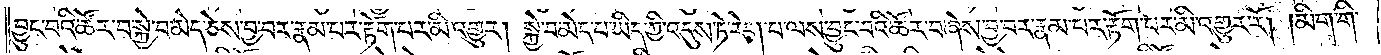བྱུང་བའི་ཚོར་བ་སྐྱེ་བ་མེད་ཅེས་བྱ་བར་རྣམ་པར་རྟོག་པར་མི་འགྱུར། སྐྱེ་བ་མེད་པ་ཡིད་ཀྱི་འདུས་ཏེ་རེག་པ་ལས་བྱུང་བའི་ཚོར་བ་ཞེས་བྱ་བར་རྣམ་པར་རྟོག་པར་མི་འགྱུར་རོ། །མིག་གི་
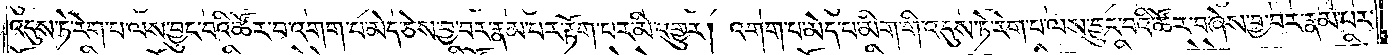འདུས་ཏེ་རེག་པ་ལས་བྱུང་བའི་ཚོར་བ་འགག་པ་མེད་ཅེས་བྱ་བར་རྣམ་པར་རྟོག་པར་མི་འགྱུར། འགག་པ་མེད་པ་མིག་གི་འདུས་ཏེ་རེག་པ་ལས་བྱུང་བའི་ཚོར་བ་ཞེས་བྱ་བར་རྣམ་པར་
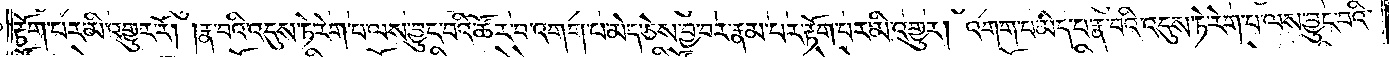རྟོག་པར་མི་འགྱུར་རོ། །རྣ་བའི་འདུས་ཏེ་རེག་པ་ལས་བྱུང་བའི་ཚོར་བ་འགག་པ་མེད་ཅེས་བྱ་བར་རྣམ་པར་རྟོག་པར་མི་འགྱུར། འགག་པ་མེད་པ་རྣ་བའི་འདུས་ཏེ་རེག་པ་ལས་བྱུང་བའི་
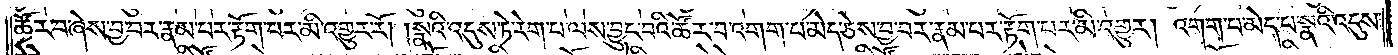ཚོར་བ་ཞེས་བྱ་བར་རྣམ་པར་རྟོག་པར་མི་འགྱུར་རོ། །སྣའི་འདུས་ཏེ་རེག་པ་ལས་བྱུང་བའི་ཚོར་བ་འགག་པ་མེད་ཅེས་བྱ་བར་རྣམ་པར་རྟོག་པར་མི་འགྱུར། འགག་པ་མེད་པ་སྣའི་འདུས་
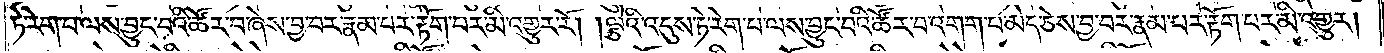ཏེ་རེག་པ་ལས་བྱུང་བའི་ཚོར་བ་ཞེས་བྱ་བར་རྣམ་པར་རྟོག་པར་མི་འགྱུར་རོ། །ལྕེའི་འདུས་ཏེ་རེག་པ་ལས་བྱུང་བའི་ཚོར་བ་འགག་པ་མེད་ཅེས་བྱ་བར་རྣམ་པར་རྟོག་པར་མི་འགྱུར།
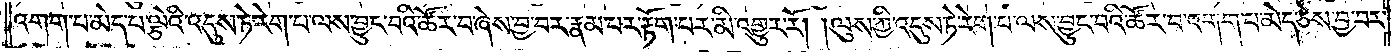འགག་པ་མེད་པ་ལྕེའི་འདུས་ཏེ་རེག་པ་ལས་བྱུང་བའི་ཚོར་བ་ཞེས་བྱ་བར་རྣམ་པར་རྟོག་པར་མི་འགྱུར་རོ། །ལུས་ཀྱི་འདུས་ཏེ་རེག་པ་ལས་བྱུང་བའི་ཚོར་བ་འགག་པ་མེད་ཅེས་བྱ་བར་
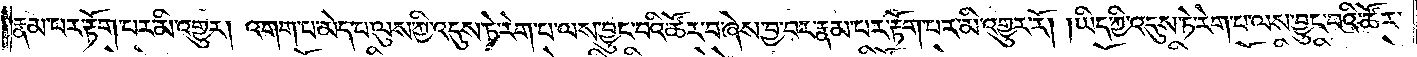རྣམ་པར་རྟོག་པར་མི་འགྱུར། འགག་པ་མེད་པ་ལུས་ཀྱི་འདུས་ཏེ་རེག་པ་ལས་བྱུང་བའི་ཚོར་བ་ཞེས་བྱ་བར་རྣམ་པར་རྟོག་པར་མི་འགྱུར་རོ། །ཡིད་ཀྱི་འདུས་ཏེ་རེག་པ་ལས་བྱུང་བའི་ཚོར་
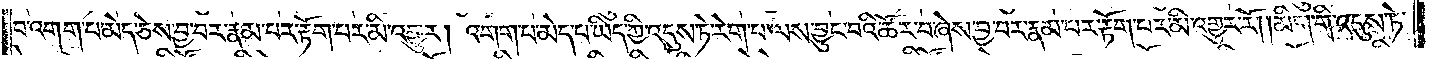བ་འགག་པ་མེད་ཅེས་བྱ་བར་རྣམ་པར་རྟོག་པར་མི་འགྱུར། འགག་པ་མེད་པ་ཡིད་ཀྱི་འདུས་ཏེ་རེག་པ་ལས་བྱུང་བའི་ཚོར་བ་ཞེས་བྱ་བར་རྣམ་པར་རྟོག་པར་མི་འགྱུར་རོ། །མིག་གི་འདུས་ཏེ་
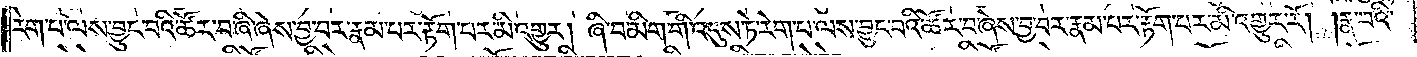རེག་པ་ལས་བྱུང་བའི་ཚོར་བ་ཞི་ཞེས་བྱ་བར་རྣམ་པར་རྟོག་པར་མི་འགྱུར། ཞི་བ་མིག་གི་འདུས་ཏེ་རེག་པ་ལས་བྱུང་བའི་ཚོར་བ་ཞེས་བྱ་བར་རྣམ་པར་རྟོག་པར་མི་འགྱུར་རོ། །རྣ་བའི་
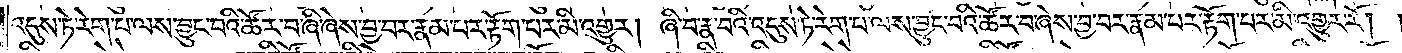འདུས་ཏེ་རེག་པ་ལས་བྱུང་བའི་ཚོར་བ་ཞི་ཞེས་བྱ་བར་རྣམ་པར་རྟོག་པར་མི་འགྱུར། ཞི་བ་རྣ་བའི་འདུས་ཏེ་རེག་པ་ལས་བྱུང་བའི་ཚོར་བ་ཞེས་བྱ་བར་རྣམ་པར་རྟོག་པར་མི་འགྱུར་རོ། །
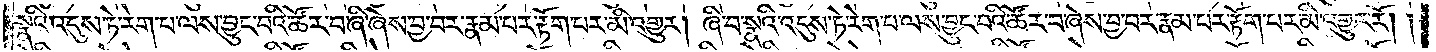སྣའི་འདུས་ཏེ་རེག་པ་ལས་བྱུང་བའི་ཚོར་བ་ཞི་ཞེས་བྱ་བར་རྣམ་པར་རྟོག་པར་མི་འགྱུར། ཞི་བ་སྣའི་འདུས་ཏེ་རེག་པ་ལས་བྱུང་བའི་ཚོར་བ་ཞེས་བྱ་བར་རྣམ་པར་རྟོག་པར་མི་འགྱུར་རོ། །
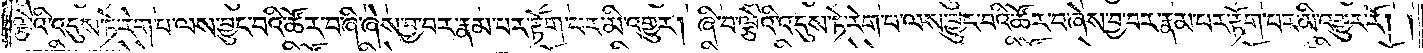ལྕེའི་འདུས་ཏེ་རེག་པ་ལས་བྱུང་བའི་ཚོར་བ་ཞི་ཞེས་བྱ་བར་རྣམ་པར་རྟོག་པར་མི་འགྱུར། ཞི་བ་ལྕེའི་འདུས་ཏེ་རེག་པ་ལས་བྱུང་བའི་ཚོར་བ་ཞེས་བྱ་བར་རྣམ་པར་རྟོག་པར་མི་འགྱུར་རོ། །
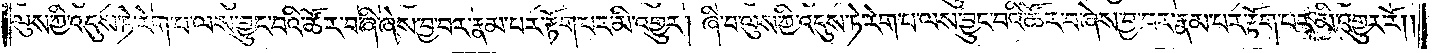ལུས་ཀྱི་འདུས་ཏེ་རེག་པ་ལས་བྱུང་བའི་ཚོར་བ་ཞི་ཞེས་བྱ་བར་རྣམ་པར་རྟོག་པར་མི་འགྱུར། ཞི་བ་ལུས་ཀྱི་འདུས་ཏེ་རེག་པ་ལས་བྱུང་བའི་ཚོར་བ་ཞེས་བྱ་བར་རྣམ་པར་རྟོག་པར་མི་འགྱུར་རོ། །
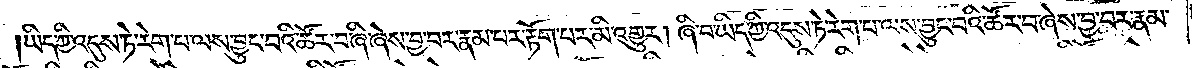ཡིད་ཀྱི་འདུས་ཏེ་རེག་པ་ལས་བྱུང་བའི་ཚོར་བ་ཞི་ཞེས་བྱ་བར་རྣམ་པར་རྟོག་པར་མི་འགྱུར། ཞི་བ་ཡིད་ཀྱི་འདུས་ཏེ་རེག་པ་ལས་བྱུང་བའི་ཚོར་བ་ཞེས་བྱ་བར་རྣམ་
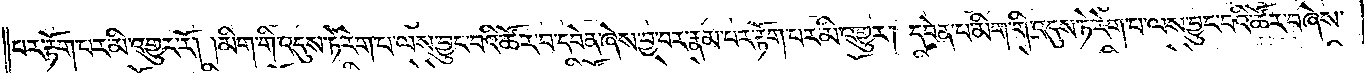པར་རྟོག་པར་མི་འགྱུར་རོ། །མིག་གི་འདུས་ཏེ་རེག་པ་ལས་བྱུང་བའི་ཚོར་བ་དབེན་ཞེས་བྱ་བར་རྣམ་པར་རྟོག་པར་མི་འགྱུར། དབེན་པ་མིག་གི་འདུས་ཏེ་རེག་པ་ལས་བྱུང་བའི་ཚོར་བ་ཞེས་
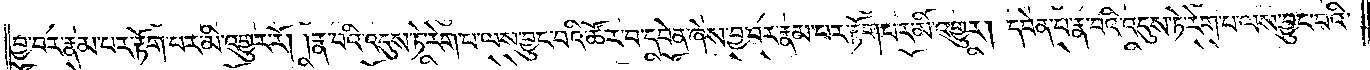བྱ་བར་རྣམ་པར་རྟོག་པར་མི་འགྱུར་རོ། །རྣ་བའི་འདུས་ཏེ་རེག་པ་ལས་བྱུང་བའི་ཚོར་བ་དབེན་ཞེས་བྱ་བར་རྣམ་པར་རྟོག་པར་མི་འགྱུར། དབེན་པ་རྣ་བའི་འདུས་ཏེ་རེག་པ་ལས་བྱུང་བའི་
